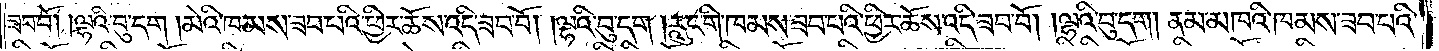ཟབ་བོ། །ལྷའི་བུ་དག །མེའི་ཁམས་ཟབ་པའི་ཕྱིར་ཆོས་འདི་ཟབ་བོ། །ལྷའི་བུ་དག །རླུང་གི་ཁམས་ཟབ་པའི་ཕྱིར་ཆོས་འདི་ཟབ་བོ། །ལྷའི་བུ་དག །ནམ་མཁའི་ཁམས་ཟབ་པའི་
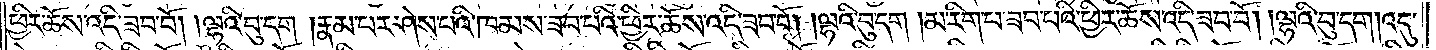ཕྱིར་ཆོས་འདི་ཟབ་བོ། །ལྷའི་བུ་དག །རྣམ་པར་ཤེས་པའི་ཁམས་ཟབ་པའི་ཕྱིར་ཆོས་འདི་ཟབ་བོ། །ལྷའི་བུ་དག །མ་རིག་པ་ཟབ་པའི་ཕྱིར་ཆོས་འདི་ཟབ་བོ། །ལྷའི་བུ་དག །འདུ་
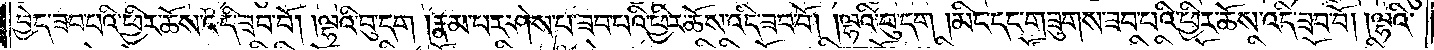བྱེད་ཟབ་པའི་ཕྱིར་ཆོས་འདི་ཟབ་བོ། །ལྷའི་བུ་དག །རྣམ་པར་ཤེས་པ་ཟབ་པའི་ཕྱིར་ཆོས་འདི་ཟབ་བོ། །ལྷའི་བུ་དག །མིང་དང་གཟུགས་ཟབ་པའི་ཕྱིར་ཆོས་འདི་ཟབ་བོ། །ལྷའི་
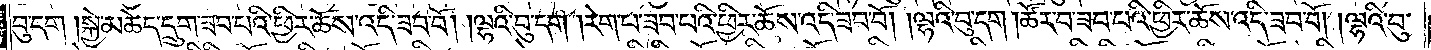བུ་དག །སྐྱེ་མཆེད་དྲུག་ཟབ་པའི་ཕྱིར་ཆོས་འདི་ཟབ་བོ། །ལྷའི་བུ་དག །རེག་པ་ཟབ་པའི་ཕྱིར་ཆོས་འདི་ཟབ་བོ། །ལྷའི་བུ་དག །ཚོར་བ་ཟབ་པའི་ཕྱིར་ཆོས་འདི་ཟབ་བོ། །ལྷའི་བུ་
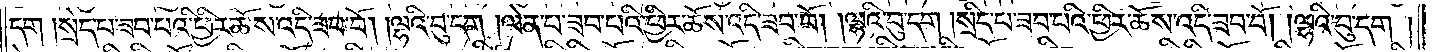དག །སྲེད་པ་ཟབ་པའི་ཕྱིར་ཆོས་འདི་ཟབ་བོ། །ལྷའི་བུ་དག །ལེན་པ་ཟབ་པའི་ཕྱིར་ཆོས་འདི་ཟབ་བོ། །ལྷའི་བུ་དག །སྲིད་པ་ཟབ་པའི་ཕྱིར་ཆོས་འདི་ཟབ་བོ། །ལྷའི་བུ་དག།
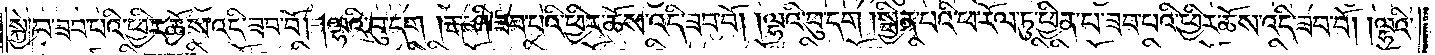སྐྱེ་བ་ཟབ་པའི་ཕྱིར་ཆོས་འདི་ཟབ་བོ། །ལྷའི་བུ་དག །རྒ་ཤི་ཟབ་པའི་ཕྱིར་ཆོས་འདི་ཟབ་བོ། །ལྷའི་བུ་དག །སྦྱིན་པའི་ཕ་རོལ་ཏུ་ཕྱིན་པ་ཟབ་པའི་ཕྱིར་ཆོས་འདི་ཟབ་བོ། །ལྷའི་
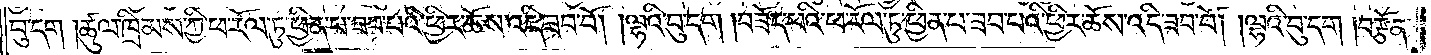བུ་དག །ཚུལ་ཁྲིམས་ཀྱི་ཕ་རོལ་ཏུ་ཕྱིན་པ་ཟབ་པའི་ཕྱིར་ཆོས་འདི་ཟབ་བོ། །ལྷའི་བུ་དག །བཟོད་པའི་ཕ་རོལ་ཏུ་ཕྱིན་པ་ཟབ་པའི་ཕྱིར་ཆོས་འདི་ཟབ་བོ། །ལྷའི་བུ་དག །བརྩོན་
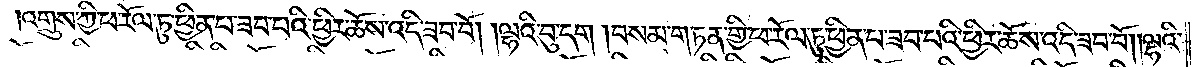འགྲུས་ཀྱི་ཕ་རོལ་ཏུ་ཕྱིན་པ་ཟབ་པའི་ཕྱིར་ཆོས་འདི་ཟབ་བོ། །ལྷའི་བུ་དག །བསམ་གཏན་གྱི་ཕ་རོལ་ཏུ་ཕྱིན་པ་ཟབ་པའི་ཕྱིར་ཆོས་འདི་ཟབ་བོ། །ལྷའི་
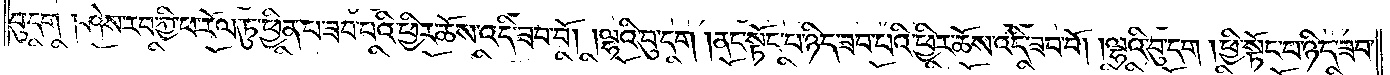བུ་དག །ཤེས་རབ་ཀྱི་ཕ་རོལ་ཏུ་ཕྱིན་པ་ཟབ་པའི་ཕྱིར་ཆོས་འདི་ཟབ་བོ། །ལྷའི་བུ་དག །ནང་སྟོང་པ་ཉིད་ཟབ་པའི་ཕྱིར་ཆོས་འདི་ཟབ་བོ། །ལྷའི་བུ་དག །ཕྱི་སྟོང་པ་ཉིད་ཟབ་
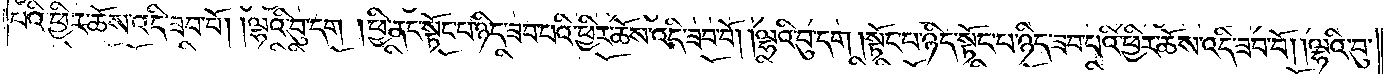པའི་ཕྱིར་ཆོས་འདི་ཟབ་བོ། །ལྷའི་བུ་དག །ཕྱི་ནང་སྟོང་པ་ཉིད་ཟབ་པའི་ཕྱིར་ཆོས་འདི་ཟབ་བོ། །ལྷའི་བུ་དག །སྟོང་པ་ཉིད་སྟོང་པ་ཉིད་ཟབ་པའི་ཕྱིར་ཆོས་འདི་ཟབ་བོ། །ལྷའི་བུ་
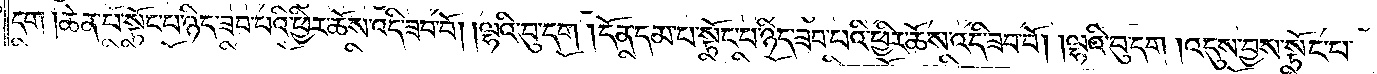དག །ཆེན་པོ་སྟོང་པ་ཉིད་ཟབ་པའི་ཕྱིར་ཆོས་འདི་ཟབ་བོ། །ལྷའི་བུ་དག །དོན་དམ་པ་སྟོང་པ་ཉིད་ཟབ་པའི་ཕྱིར་ཆོས་འདི་ཟབ་བོ། །ལྷའི་བུ་དག །འདུས་བྱས་སྟོང་པ་
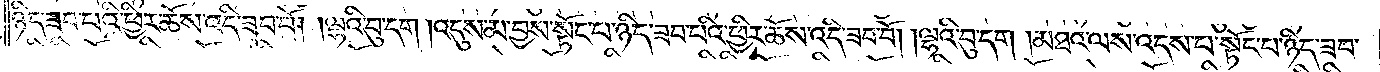ཉིད་ཟབ་པའི་ཕྱིར་ཆོས་འདི་ཟབ་བོ། །ལྷའི་བུ་དག །འདུས་མ་བྱས་སྟོང་པ་ཉིད་ཟབ་པའི་ཕྱིར་ཆོས་འདི་ཟབ་བོ། །ལྷའི་བུ་དག །མཐའ་ལས་འདས་པ་སྟོང་པ་ཉིད་ཟབ་
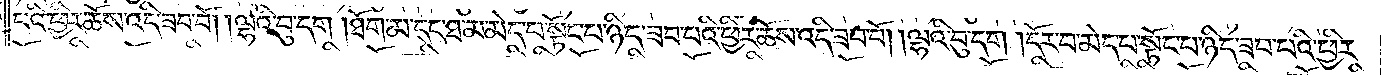པའི་ཕྱིར་ཆོས་འདི་ཟབ་བོ། །ལྷའི་བུ་དག །ཐོག་མ་དང་ཐ་མ་མེད་པ་སྟོང་པ་ཉིད་ཟབ་པའི་ཕྱིར་ཆོས་འདི་ཟབ་བོ། །ལྷའི་བུ་དག །དོར་བ་མེད་པ་སྟོང་པ་ཉིད་ཟབ་པའི་ཕྱིར་
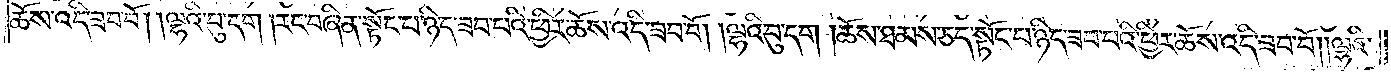ཆོས་འདི་ཟབ་བོ། །ལྷའི་བུ་དག །རང་བཞིན་སྟོང་པ་ཉིད་ཟབ་པའི་ཕྱིར་ཆོས་འདི་ཟབ་བོ། །ལྷའི་བུ་དག །ཆོས་ཐམས་ཅད་སྟོང་པ་ཉིད་ཟབ་པའི་ཕྱིར་ཆོས་འདི་ཟབ་བོ། །ལྷའི་
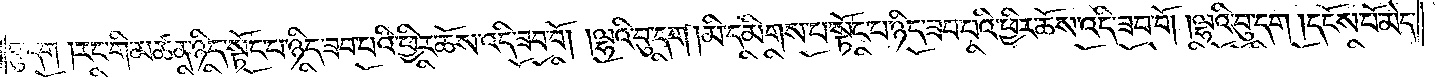བུ་དག །རང་གི་མཚན་ཉིད་སྟོང་པ་ཉིད་ཟབ་པའི་ཕྱིར་ཆོས་འདི་ཟབ་བོ། །ལྷའི་བུ་དག །མི་དམིགས་པ་སྟོང་པ་ཉིད་ཟབ་པའི་ཕྱིར་ཆོས་འདི་ཟབ་བོ། །ལྷའི་བུ་དག །དངོས་པོ་མེད་
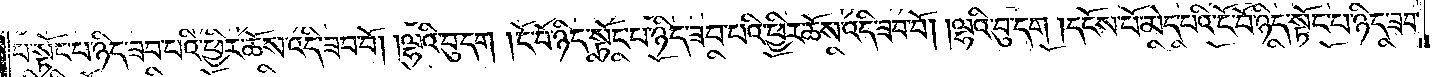པ་སྟོང་པ་ཉིད་ཟབ་པའི་ཕྱིར་ཆོས་འདི་ཟབ་བོ། །ལྷའི་བུ་དག །ངོ་བོ་ཉིད་སྟོང་པ་ཉིད་ཟབ་པའི་ཕྱིར་ཆོས་འདི་ཟབ་བོ། །ལྷའི་བུ་དག །དངོས་པོ་མེད་པའི་ངོ་བོ་ཉིད་སྟོང་པ་ཉིད་ཟབ་
